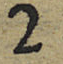2
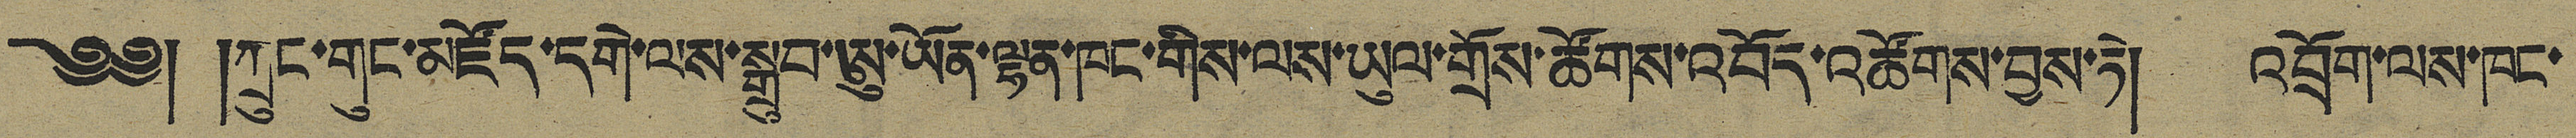༄༅། །ཀྲུང་གུང་མཛོད་དགེ་ལས་སྒྲུབ་ཨུ་ཡོན་ལྷན་ཁང་གིས་ལས་ཡུལ་གྲོས་ཚོགས་འབོད་འཚོགས་བྱས་ཏེ། འབྲོག་ལས་ཁང་
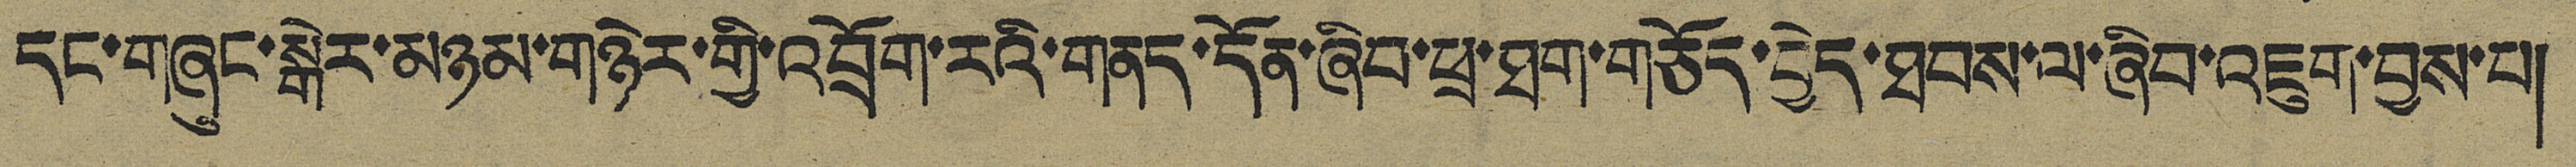དང་གཞུང་སྒེར་མཉམ་གཉེར་གྱི་འབྲོག་རའི་གནད་དོན་ཞིབ་ཕྲ་ཐག་གཅོད་བྱེད་ཐབས་ལ་ཞིབ་འཇུག་བྱས་བ།
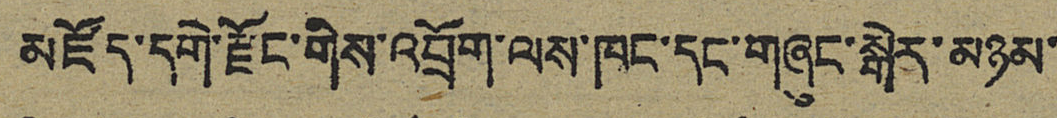མཛོད་དགེ་རྫོང་གིས་འབྲོག་ལས་ཁང་དང་གཞུང་སྒེར་མཉམ་
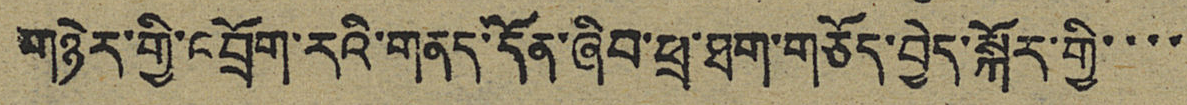གཉེར་གྱི་འབྲོག་རའི་གནད་དོན་ཞིབ་ཕྲ་ཐག་གཅོད་བྱེད་སྐོར་གྱི་་་་
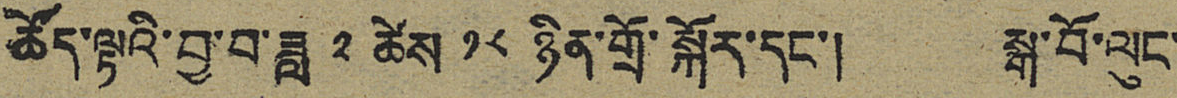ཚོད་ལྟའི་བྱ་བ་ཟླ ༢ ཚེས ༡༨ ཉིན་གྲོ་སྐོར་དང་། སྒ་བོ་ལུང་
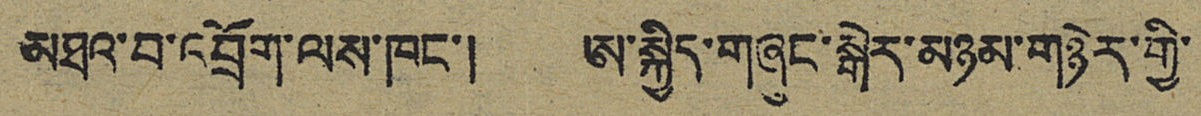མཐའ་བ་འབྲོག་ལས་ཁང་། ཨ་སྐྱིད་གཞུང་སྒེར་མཉམ་གཉེར་གྱི་
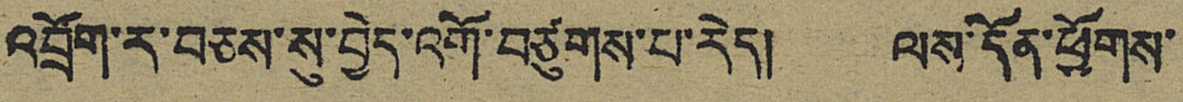འབྲོག་ར་བཅས་སུ་བྱེད་འགོ་བཙུགས་པ་རེད། ལས་དོན་ཕྱོགས་
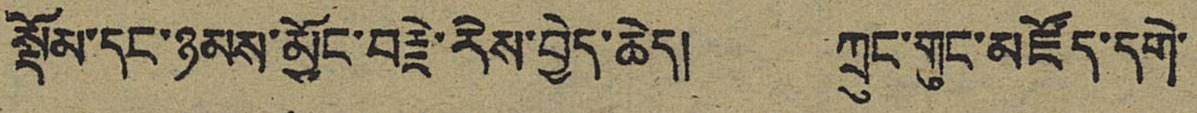སྡོམ་དང་ཉམས་མྱོང་བརྗེ་རེས་བྱེད་ཆེད། ཀྲུང་གུང་མཛོད་དགེ་
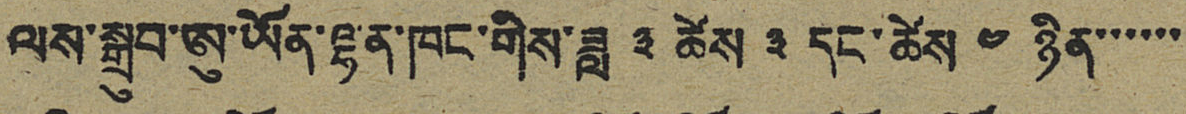ལས་སྒྲུབ་ཨུ་ཡོན་ལྷན་ཁང་གིས་ཟླ ༣ ཚེས ༣ དང་ཚེས ༤ ཉིན་་་་་་
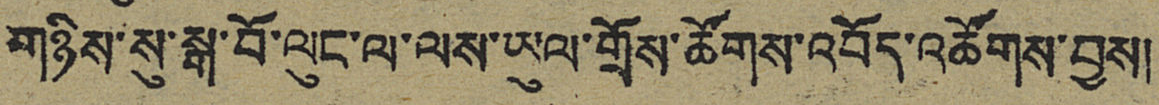གཉིས་སུ་སྒ་བོ་ལུང་ལ་ལས་ཡུལ་གྲོས་ཚོགས་འབོད་འཚོགས་བྱས།
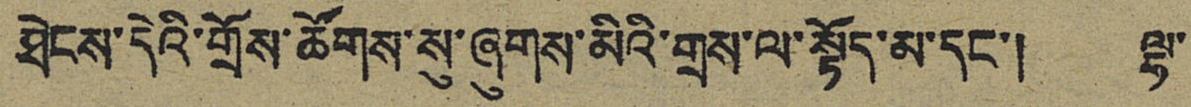ཐེངས་དེའི་གྲོས་ཚོགས་སུ་ཞུགས་མིའི་གྲས་ལ་སྟོད་མ་དང་། ལྷ་
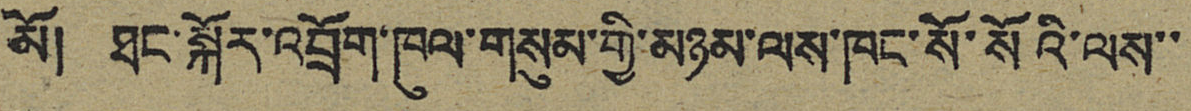མོ། ཐང་སྐོར་འབྲོག་ཁུལ་གསུམ་གྱི་མཉམ་ལས་ཁང་སོ་སོའི་ལས་་
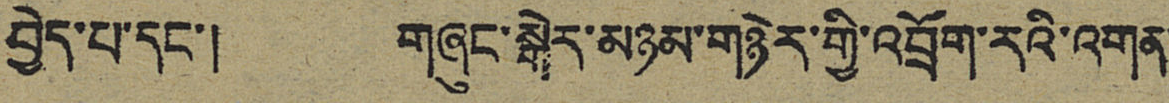བྱེད་པ་དང་། གཞུང་སྒེར་མཉམ་གཉེར་གྱི་འབྲོག་རའི་འགན་
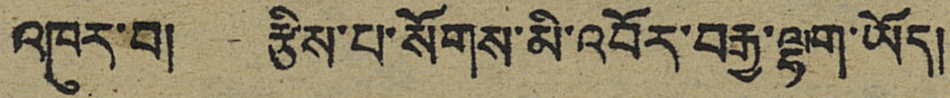འཁུར་བ། རྩིས་པ་སོགས་མི་འབོར་བརྒྱ་ལྷག་ཡོད།
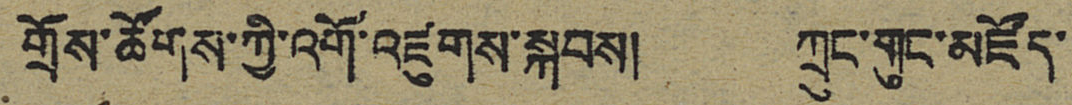གྲོས་ཚོགས་ཀྱི་འགོ་འཛུགས་སྐབས། ཀྲུང་གུང་མཛོད་
